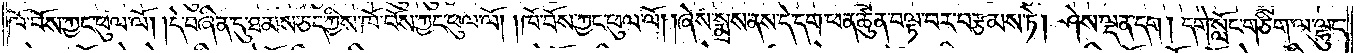ཁོ་བོས་ཀྱང་ཕུལ་ལོ། །དེ་བཞིན་དུ་ཐམས་ཅད་ཀྱིས་ཁོ་བོས་ཀྱང་ཕུལ་ལོ། །ཁོ་བོས་ཀྱང་ཕུལ་ལོ། །ཞེས་སྨྲས་ནས་དེ་དག་ཕན་ཚུན་བལྟ་བར་བརྩམས་ཏེ། ཤེས་ལྡན་དག། དགེ་སློང་གཅིག་ལ་ལྷུང་
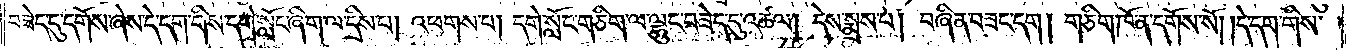བཟེད་དུ་དགོས་ཞེས་དེ་དག་གིས་དགེ་སློང་ཞིག་ལ་དྲིས་པ། འཕགས་པ། དགེ་སློང་གཅིག་ལ་ལྷུང་བཟེད་དུ་འཚལ། དེས་སྨྲས་པ། བཞིན་བཟང་དག། གཅིག་ཁོ་ན་དགོས་སོ། །དེ་དག་གིས་
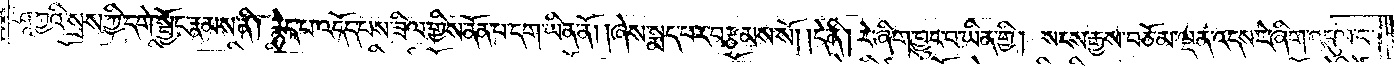ཤཱཀྱའི་སྲས་ཀྱི་དགེ་སྦྱོང་རྣམས་ནི། རྙེད་པ་འདོད་པས་ཟིལ་གྱིས་ནོན་པ་དག་ཡིན་ནོ། །ཞེས་སྨད་པར་བརྩམས་སོ། །དེ་ནི། རེ་ཞིག་བྱུང་བ་ཡིན་གྱི། སངས་རྒྱས་བཅོམ་ལྡན་འདས་རེ་ཞིག་འདུལ་བ་
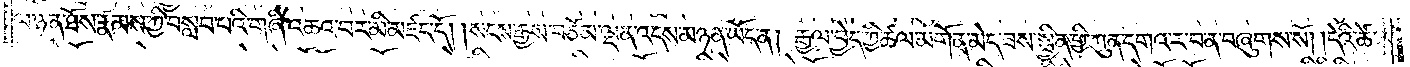ལ་ཉན་ཐོས་རྣམས་ཀྱི་བསླབ་པའི་གཞི་འཆའ་བར་མི་མཛད་དོ། །སངས་རྒྱས་བཅོམ་ལྡན་འདས་མཉན་ཡོད་ན། རྒྱལ་བྱེད་ཀྱི་ཚལ་མགོན་མེད་ཟས་སྦྱིན་གྱི་ཀུན་དགའ་ར་བ་ན་བཞུགས་སོ། །དེའི་ཚེ་
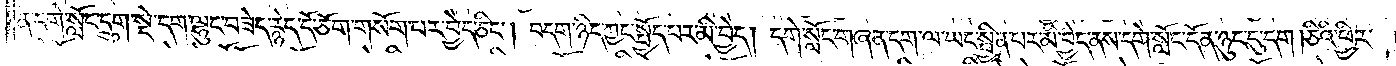ན་དགེ་སློང་དྲུག་སྡེ་དག་ལྷུང་བཟེད་རྙེད་དོ་ཅོག་གསོག་པར་བྱེད་ཅིང༌། བདག་ཉིད་ཀྱང་སྤྱོད་པར་མི་བྱེད། དགེ་སློང་གཞན་དག་ལ་ཡང་སྦྱིན་པར་མི་བྱེད་ནས་དགེ་སློང་དོན་ཉུང་དུ་དག། ཅིའི་ཕྱིར་
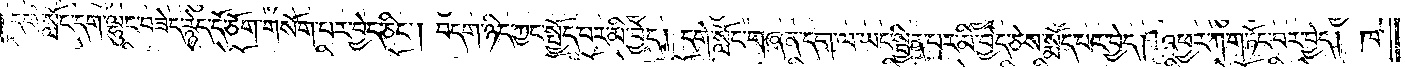དགེ་སློང་དག་ལྷུང་བཟེད་རྙེད་དོ་ཅོག་གསོག་པར་བྱེད་ཅིང༌། བདག་ཉིད་ཀྱང་སྤྱོད་པར་མི་བྱེད། དགེ་སློང་གཞན་དག་ལ་ཡང་སྦྱིན་པར་མི་བྱེད་ཅེས་སྨོད་པར་བྱེད། འཕྱར་ཀ་གཏོང་བར་བྱེད། ཁ་
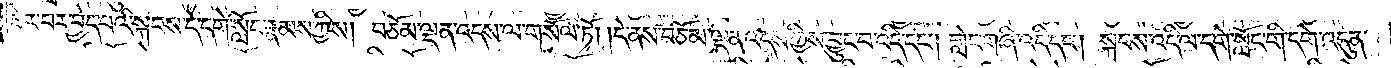ཟེར་བར་བྱེད་པའི་སྐབས་དེ་དགེ་སློང་རྣམས་ཀྱིས། བཅོམ་ལྡན་འདས་ལ་གསོལ་ཏོ། །དེ་ནས་བཅོམ་ལྡན་འདས་ཀྱིས་བྱུང་བ་འདི་དང༌། གླེང་གཞི་འདི་དང༌། སྐབས་འདི་ལ་དགེ་སློང་གི་དགེ་འདུན་
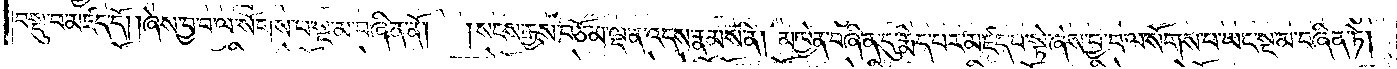བསྡུ་བ་མཛད་དོ། །ཞེས་བྱ་བ་ལ་སོགས་པ་སྔ་མ་བཞིན་ནོ། །སངས་རྒྱས་བཅོམ་ལྡན་འདས་རྣམས་ནི། མཁྱེན་བཞིན་དུ་རྨེད་པར་མཛད་པ་སྟེ་ཞེས་བྱ་བ་ལ་སོགས་པ་ཡང་སྔ་མ་བཞིན་ཏེ།
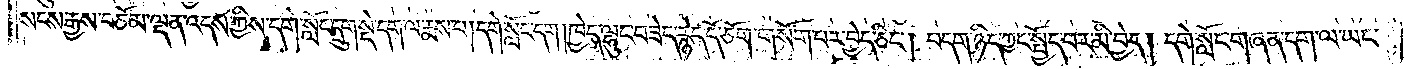སངས་རྒྱས་བཅོམ་ལྡན་འདས་ཀྱིས་དགེ་སློང་དྲུག་སྡེ་དག་ལ་རྨས་པ། དགེ་སློང་དག །ཁྱེད་ལྷུང་བཟེད་རྙེད་དོ་ཅོག་གསོག་པར་བྱེད་ཅིང༌། བདག་ཉིད་ཀྱང་སྤྱོད་པར་མི་བྱེད། དགེ་སློང་གཞན་དག་ལ་ཡང་
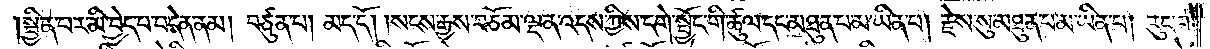སྦྱིན་པར་མི་བྱེད་པ་བདེན་ནམ། བཙུན་པ། མད་དོ། །སངས་རྒྱས་བཅོམ་ལྡན་འདས་ཀྱིས་དགེ་སྦྱོང་གི་ཚུལ་དང་མཐུན་པ་མ་ཡིན་པ། རྗེས་སུ་མཐུན་པ་མ་ཡིན་པ། རུང་བ་
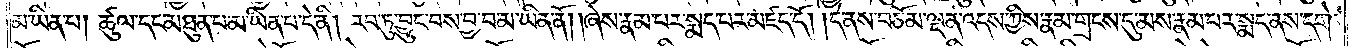མ་ཡིན་པ། ཚུལ་དང་མཐུན་པ་མ་ཡིན་པ་དེ་ནི། རབ་ཏུ་བྱུང་བས་བྱ་བ་མ་ཡིན་ནོ། །ཞེས་རྣམ་པར་སྨད་པར་མཛད་དོ། །དེ་ནས་བཅོམ་ལྡན་འདས་ཀྱིས་རྣམ་གྲངས་དུ་མས་རྣམ་པར་སྨད་ནས་དགེ་
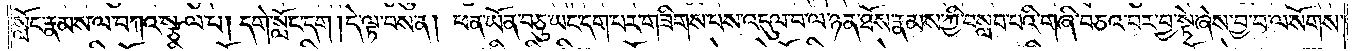སློང་རྣམས་ལ་བཀའ་སྩལ་པ། དགེ་སློང་དག །དེ་ལྟ་བས་ན། ཕན་ཡོན་བཅུ་ཡང་དག་པར་གཟིགས་པས་འདུལ་བ་ལ་ཉན་ཐོས་རྣམས་ཀྱི་བསླབ་པའི་གཞི་བཅའ་བར་བྱ་སྟེ་ཞེས་བྱ་བ་ལ་སོགས་
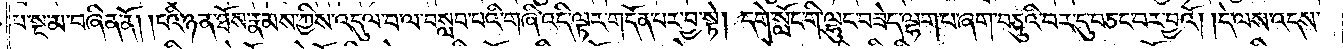པ་སྔ་མ་བཞིན་ནོ། །ངའི་ཉན་ཐོས་རྣམས་ཀྱིས་འདུལ་བ་ལ་བསླབ་པའི་གཞི་འདི་ལྟར་གདོན་པར་བྱ་སྟེ། དགེ་སློང་གི་ལྷུང་བཟེད་ལྷག་པ་ཞག་བཅུའི་བར་དུ་བཅང་བར་བྱའོ། །དེ་ལས་འདས་
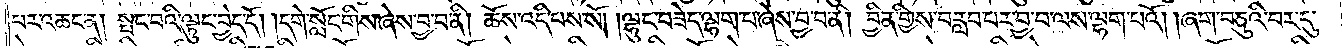པར་འཆང་ན། སྤང་བའི་ལྟུང་བྱེད་དོ། །དགེ་སློང་གིས་ཞེས་བྱ་བ་ནི། ཆོས་འདི་པས་སོ། །ལྷུང་བཟེད་ལྷག་པ་ཞེས་བྱ་བ་ནི། བྱིན་གྱིས་བརླབ་པར་བྱ་བ་ལས་ལྷག་པའོ། །ཞག་བཅུའི་བར་དུ་
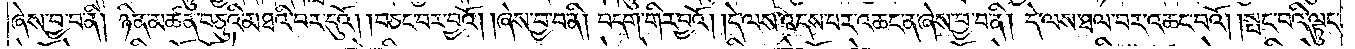ཞེས་བྱ་བ་ནི། ཉིན་མཚན་བཅུའི་མཐའི་བར་དུའོ། །བཅང་བར་བྱའོ། །ཞེས་བྱ་བ་ནི། བདག་གིར་བྱའོ། །དེ་ལས་འདས་པར་འཆང་ན་ཞེས་བྱ་བ་ནི། དེ་ལས་ཐལ་བར་འཆང་བའོ། །སྤང་བའི་ལྟུང་
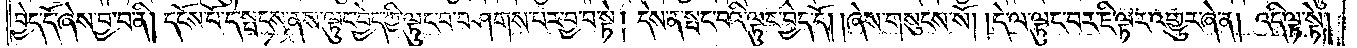བྱེད་དོ་ཞེས་བྱ་བ་ནི། དངོས་པོ་དེ་སྤངས་ནས་ལྟུང་བྱེད་ཀྱི་ལྟུང་བ་བཤགས་པར་བྱ་བ་སྟེ། དེས་ན་སྤང་བའི་ལྟུང་བྱེད་དོ། །ཞེས་གསུངས་སོ། །དེ་ལ་ལྟུང་བར་ཇི་ལྟར་འགྱུར་ཞེ་ན། འདི་ལྟ་སྟེ།
